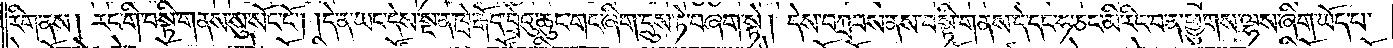རིག་ནས། རང་གི་བསྟི་གནས་སུ་སོང་ངོ༌། །དེ་ན་ཡང་དེས་སྔ་ན་ཁྲེ་རྒོད་བྲེའུ་ཆུང་གང་ཞིག་དྲུས་ཏེ་བཞག་སྟེ། དེས་བཀྲབས་ནས་བསྟི་གནས་དེ་དང་ཧ་ཅང་མི་རིང་བ་ན་ཕྱུགས་ལྷས་ཞིག་ཡོད་པ་
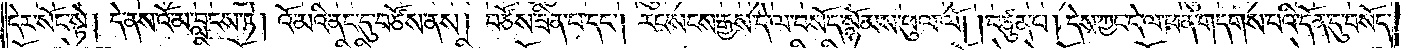དེར་སོང་སྟེ། དེ་ནས་འོ་མ་བླངས་ཏེ། འོ་མའི་ནང་དུ་བཙོས་ནས། བཙོས་ཟིན་པ་དང༌། རང་སངས་རྒྱས་དེ་ལ་བསོད་སྙོམས་ཕུལ་ལོ། །བཙུན་པ། དེས་ཀྱང་དེ་ལ་ཕན་གདགས་པའི་དོན་དུ་བསོད་
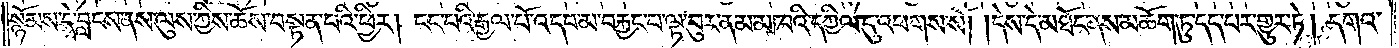སྙོམས་དེ་བླངས་ནས་ལུས་ཀྱིས་ཆོས་བསྟན་པའི་ཕྱིར། ངང་པའི་རྒྱལ་པོ་འདབ་མ་བརྐྱང་བ་ལྟ་བུར་ནམ་མཁའི་དཀྱིལ་དུ་འཕགས་སོ། །དེས་དེ་མཐོང་ནས་མཆོག་ཏུ་དད་པར་གྱུར་ཏེ། དགའ་
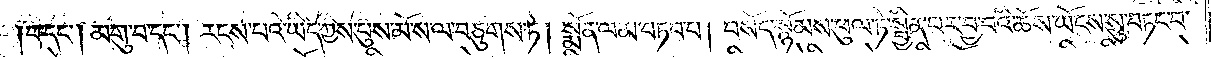བ་དང༌། མགུ་བ་དང༌། རངས་པའི་ཡིད་ཀྱིས་པུས་མོ་ས་ལ་བཙུགས་ཏེ། སྨོན་ལམ་བཏབ་པ། བསོད་སྙོམས་ཕུལ་ཏེ་སྦྱིན་པར་བྱ་བའི་ཆོས་ཡོངས་སུ་བཏང་བ་
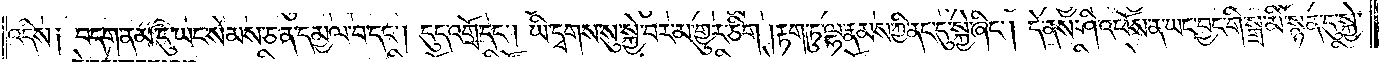འདིས། བདག་ནམ་དུ་ཡང་སེམས་ཅན་དམྱལ་བ་དང༌། དུད་འགྲོ་དང༌། ཡི་དྭགས་སུ་སྐྱེ་བར་མ་གྱུར་ཅིག །རྟག་ཏུ་ལྷ་རྣམས་ཀྱི་ནང་དུ་སྐྱེ་ཞིང༌། དེ་ནས་ཤི་འཕོས་ན་ཡང་བྱང་གི་སྒྲ་མི་སྙན་དུ་སྐྱེ་
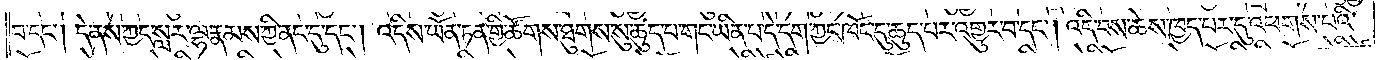བ་དང༌། དེ་ནས་ཀྱང་སླར་ལྷ་རྣམས་ཀྱི་ནང་དུ་དང༌། འདིས་ཡོན་ཏན་གྱི་ཚོགས་ཐུགས་སུ་ཆུད་པ་གང་ཡིན་པ་དེ་དག་ཀྱང་ཁོང་དུ་ཆུད་པར་འགྱུར་བ་དང༌། འདི་བས་ཆེས་ཁྱད་པར་དུ་འཕགས་པའི་
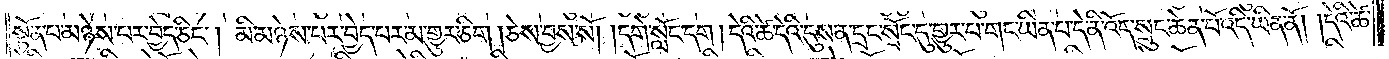སྟོན་པ་མཉེས་པར་བྱེད་ཅིང༌། མི་མཉེས་པར་བྱེད་པར་མ་གྱུར་ཅིག །ཅེས་བྱས་སོ། །དགེ་སློང་དག །དེའི་ཚེ་དེའི་དུས་ན་དྲང་སྲོང་དུ་གྱུར་པ་གང་ཡིན་པ་དེ་ནི་འོད་སྲུང་ཆེན་པོ་འདི་ཡིན་ནོ། །དེའི་ཚེ་
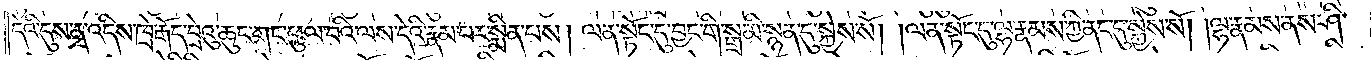དེའི་དུས་ན་འདིས་ཁྲེ་རྒོད་བྲེའུ་ཆུང་གང་ཕུལ་བའི་ལས་དེའི་རྣམ་པར་སྨིན་པས། ལན་སྟོང་དུ་བྱང་གི་སྒྲ་མི་སྙན་དུ་སྐྱེས་སོ། །ལན་སྟོང་དུ་ལྷ་རྣམས་ཀྱི་ནང་དུ་སྐྱེས་སོ། །ལྷ་རྣམས་ནས་ཤི་
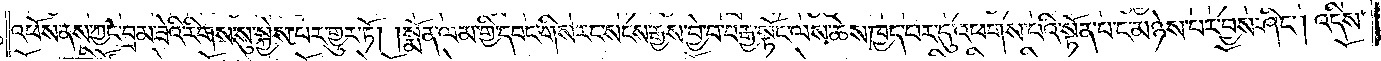འཕོས་ནས་ཀྱང་བྲམ་ཟེའི་རིགས་སུ་སྐྱེས་པར་གྱུར་ཏོ། །སྨོན་ལམ་གྱི་དབང་གིས་རང་སངས་རྒྱས་བྱེ་བ་བརྒྱ་སྟོང་ལས་ཆེས་ཁྱད་པར་དུ་འཕགས་པའི་སྟོན་པ་ང་མཉེས་པར་བྱས་ཤིང༌། འདིས་
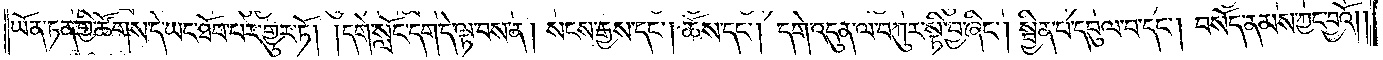ཡོན་ཏན་གྱི་ཚོགས་དེ་ཡང་ཐོབ་པར་གྱུར་ཏོ། །དགེ་སློང་དག་དེ་ལྟ་བས་ན། སངས་རྒྱས་དང༌། ཆོས་དང༌། དགེ་འདུན་ལ་བཀུར་སྟི་བྱ་ཞིང༌། སྦྱིན་པ་དབུལ་བ་དང༌། བསོད་ནམས་ཀྱང་བྱའོ། །
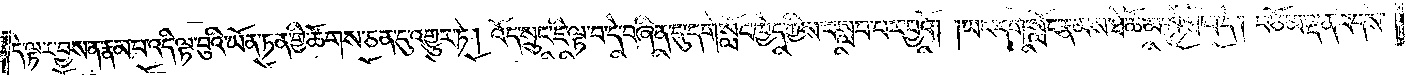དེ་ལྟར་བྱས་ན་རྣམ་པ་འདི་ལྟ་བུའི་ཡོན་ཏན་གྱི་ཚོགས་ཅན་དུ་འགྱུར་ཏེ། འོད་སྲུང་ཇི་ལྟ་བ་དེ་བཞིན་དུ་དགེ་སློང་ཁྱེད་ཀྱིས་བསླབ་པར་བྱའོ། །ཡང་དགེ་སློང་རྣམས་ཐེ་ཚོམ་སྐྱེས་པ་དེ། བཅོམ་ལྡན་འདས་
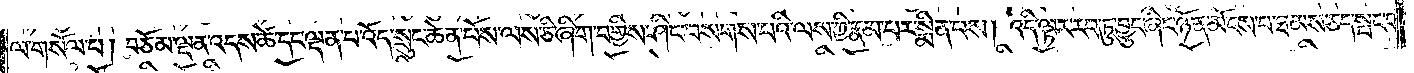ལ་གསོལ་པ། བཅོམ་ལྡན་འདས་ཚེ་དང་ལྡན་པ་འོད་སྲུང་ཆེན་པོས་ལས་ཅི་ཞིག་བགྱིས་ཤིང་བསགས་པའི་ལས་ཀྱི་རྣམ་པར་སྨིན་པས། འདི་ལྟར་རབ་ཏུ་བྱུང་ཞིང་ཉོན་མོངས་པ་ཐམས་ཅད་སྤང་བ་
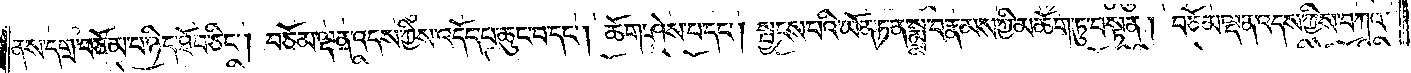ནས་དགྲ་བཅོམ་པ་ཉིད་ཐོབ་ཅིང༌། བཅོམ་ལྡན་འདས་ཀྱིས་འདོད་པ་ཆུང་བ་དང༌། ཆོག་ཤེས་པ་དང༌། སྦྱངས་བའི་ཡོན་ཏན་སྨྲ་བ་རྣམས་ཀྱི་མཆོག་ཏུ་བསྟན། བཅོམ་ལྡན་འདས་ཀྱིས་བཀའ་
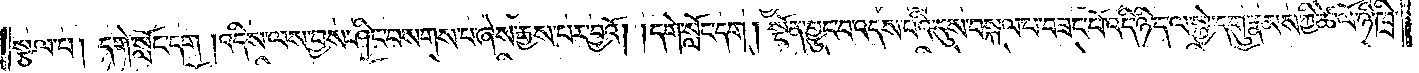སྩལ་པ། དགེ་སློང་དག །འདིས་ལས་བྱས་ཤིང་བསགས་པ་ཞེས་རྒྱས་པར་བྱའོ། །དགེ་སློང་དག །སྔོན་བྱུང་བ་འདས་པའི་དུས་བསྐལ་པ་བཟང་པོ་འདི་ཉིད་ལ་སྐྱེ་དགུ་རྣམས་ཀྱི་ཚེ་ལོ་ཉི་ཁྲི་
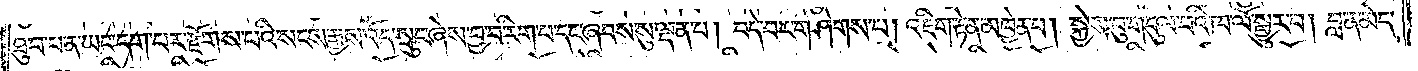ཐུབ་པ་ན་ཡང་དག་པར་རྫོགས་པའི་སངས་རྒྱས་འོད་སྲུང་ཞེས་བྱ་བ་རིག་པ་དང་ཞབས་སུ་ལྡན་པ། བདེ་བར་གཤེགས་པ། འཇིག་རྟེན་མཁྱེན་པ། སྐྱེས་བུ་གདུལ་བའི་ཁ་ལོ་སྒྱུར་བ། བླ་ན་མེད་
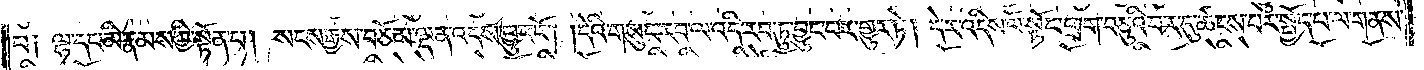པ༑ ལྷ་དང་མི་རྣམས་ཀྱི་སྟོན་པ། སངས་རྒྱས་བཅོམ་ལྡན་འདས་བྱུང་ངོ༌། །དེའི་གསུང་རབ་ལ་འདི་རབ་ཏུ་བྱུང་བར་གྱུར་ཏེ། དེར་འདིས་ལ་སྟོང་ཕྲག་བཅུའི་བར་དུ་ཚངས་པར་སྤྱོད་པ་ལ་གནས་
